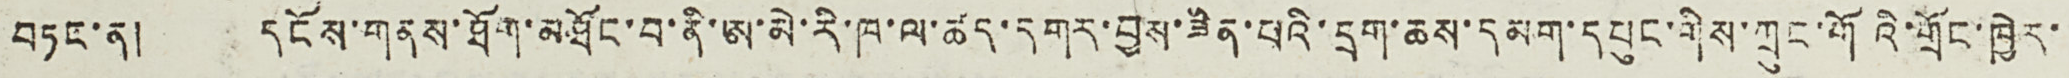བཏང་ན། དངོས་གནས་ཐོག་མཐོང་བ་ནི་ཨ་མེ་རི་ཁ་ལ་ཚད་དགར་བྱས་ཟིན་པའི་དྲག་ཆས་དམག་དཔུང་གིས་ཀྲུང་གོའི་གྲོང་ཁྱེར་
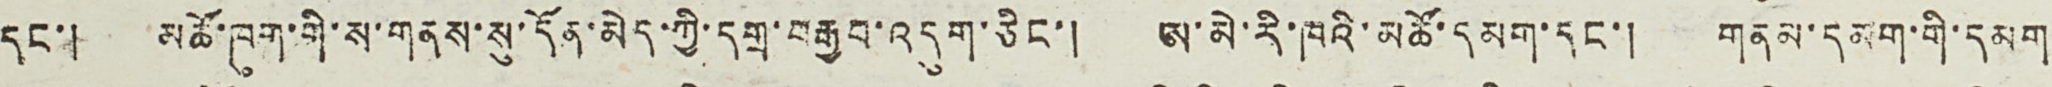དང་། མཚོ་ཁུག་གི་ས་གནས་སུ་དོན་མེད་ཀྱི་དགྲ་བརྒྱབ་འདུག་ཅིང་། ཨ་མེ་རི་ཁའི་མཚོ་དམག་དང་། གནམ་དམག་གི་དམག
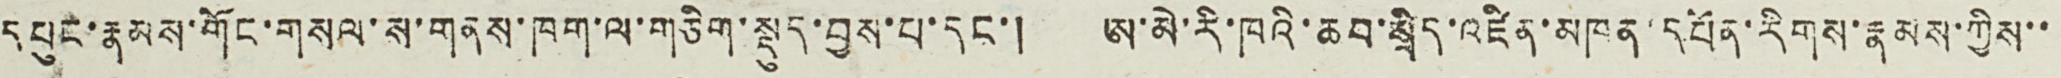དཔུང་རྣམས་གོང་གསལ་ས་གནས་ཁག་ལ་གཅིག་སྡུད་བྱས་པ་དང་། ཨ་མེ་རི་ཁའི་ཆབ་སྲིད་འཛིན་མཁན་དཔོན་རིགས་རྣམས་ཀྱིས་་
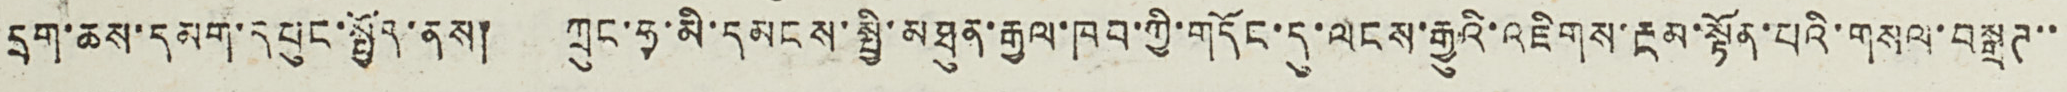དྲག་ཆས་དམག་དཔུང་སྤྱོད་ནས། ཀྲུང་ཧྭ་མི་དམངས་སྤྱི་མཐུན་རྒྱལ་ཁབ་ཀྱི་གདོང་དུ་ལངས་རྒྱུའི་འཇིགས་རྔམ་སྟོན་པའི་གསལ་བསྒྲཊ་་
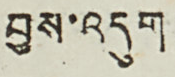བྱས་འདུག
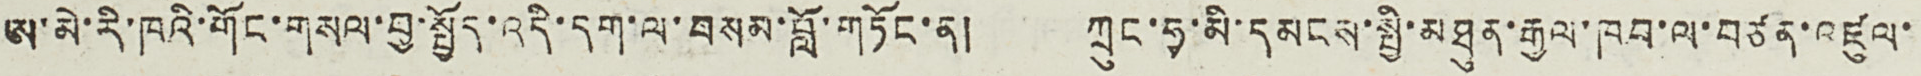ཨ་མེ་རི་ཁའི་གོང་གསལ་བྱ་སྤྱོད་འདི་དག་ལ་བསམ་བློ་གཏོང་ན། ཀྲུང་ཧྭ་མི་དམངས་སྤྱི་མཐུན་རྒྱལ་ཁབ་ལ་བཙན་འཛུལ་
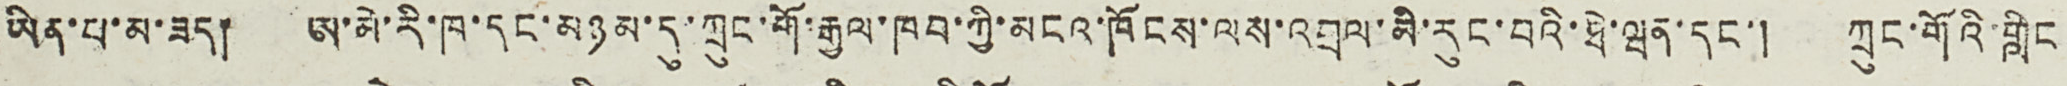ཡིན་པ་མ་ཟད། ཨ་མེ་རི་ཁ་དང་མཉམ་དུ་ཀྲུང་གོ་རྒྱལ་ཁབ་ཀྱི་མངའ་ཁོངས་ལས་འབྲལ་མི་རུང་བའི་ཐེ་ཝན་དང་། ཀྲུང་གོའི་གླིང
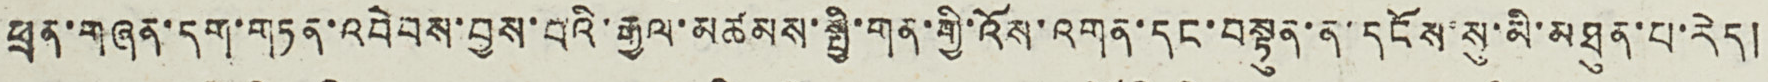ཕྲན་གཞན་དག་གཏན་འབེབས་བྱས་པའི་རྒྱལ་མཚམས་སྤྱི་གན་གྱི་འོས་འགན་དང་བསྟུན་ན་དངོས་སུ་མི་མཐུན་པ་རེད།
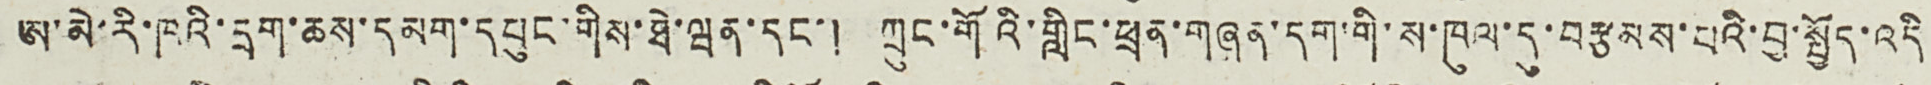ཨ་མེ་རི་ཁའི་དྲག་ཆས་དམག་དཔུང་གིས་ཐེ་ཝན་དང་། ཀྲུང་གོའི་གླིང་ཕྲན་གཞན་དག་གི་ས་ཁུལ་དུ་བརྩམས་པའི་བྱ་སྤྱོད་འདི
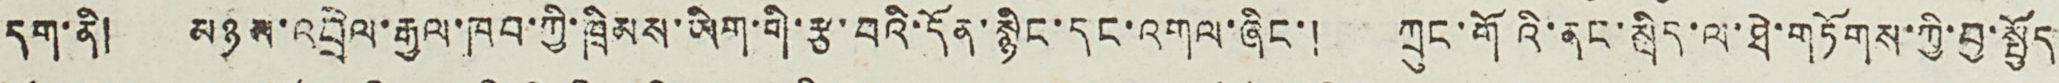དག་ནི། མཉས་འབྲེལ་རྒྱལ་ཁབ་ཀྱི་ཁྲིམས་ཡིག་གི་རྩ་བའི་དོན་སྙིང་དང་འགལ་ཞིང་། ཀྲུང་གོའི་ནང་སྲིད་ལ་ཐེ་གཏོགས་ཀྱི་བྱ་སྤྱོད
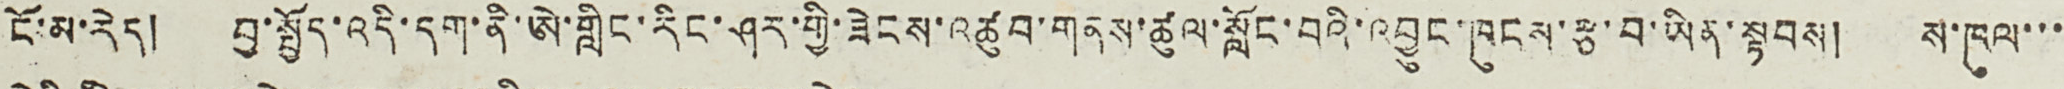ངོ་མ་རེད། བྱ་སྤྱོད་འདི་དག་ནི་ཨེ་གླིང་རིང་ཤར་གྱི་ཟེངས་འཚུབ་གནས་ཚུལ་སློང་བའི་འབྱུང་ཁུངས་རྩ་བ་ཡིན་སྟབས། ས་ཁུལ་་་
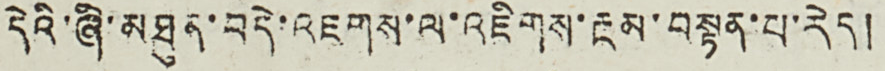དེའི་ཞི་མཐུན་བདེ་འཇགས་ལ་འཇིགས་རྔམ་བསྟན་པ་རེད།
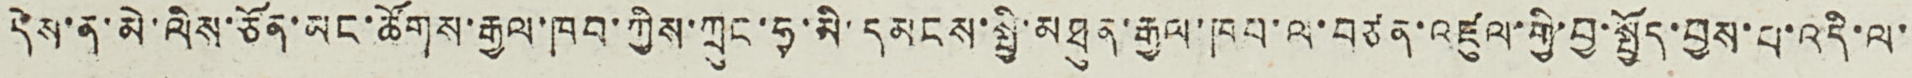དེས་ན་མེ་ལིས་ཅོན་མང་ཚོགས་རྒྱལ་ཁབ་ཀྱིས་ཀྲུང་ཧྭ་མི་དམངས་སྤྱི་མཐུན་རྒྱལ་ཁབ་ལ་བཙན་འཛུལ་གྱི་བྱ་སྤྱོད་བྱས་པ་འདི་ལ་
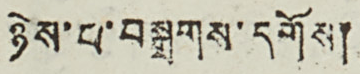ཉེས་པ་བསྒྲགས་དགོས།
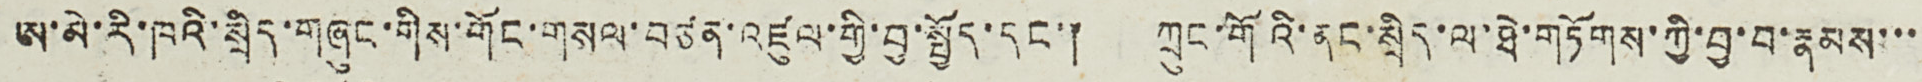ཨ་མེ་རི་ཁའི་སྲིད་གཞུང་གིས་གོང་གསལ་བཙན་འཛུལ་གྱི་བྱ་སྤྱོད་དང་། ཀྲུང་གོའི་ནང་སྲིད་ལ་ཐེ་གཏོགས་ཀྱི་བྱ་བ་རྣམས་་་
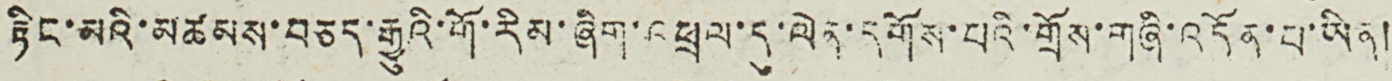རྟིང་མའི་མཚམས་བཅད་རྒྱུའི་གོ་རིམ་ཞིག་འཕྲལ་དུ་ལེན་དགོས་པའི་གྲོས་གཞི་འདོན་པ་ཡིན།
